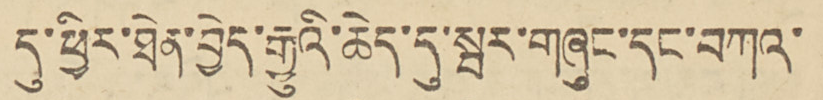དུ་ཕྱིར་ཐེན་བྱེད་རྒྱུའི་ཆེད་དུ་སྦར་གཞུང་དང་བཀའ་
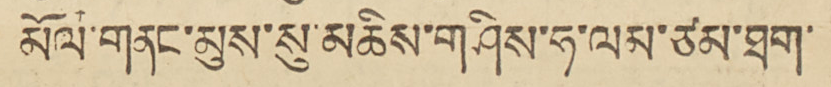མོལ་གནང་མུས་སི་མཆིས་གཤིས་ཧ་ལམ་ཙམ་ཐག་
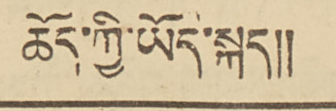ཆོད་ཀྱི་ཡོད་སྐད།།
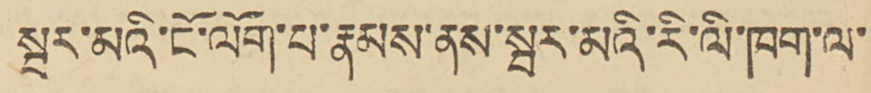སྦར་མའི་ངོ་ལོག་པ་རྣམས་ནས་སྦར་མའི་རི་ལི་ཁག་ལ་
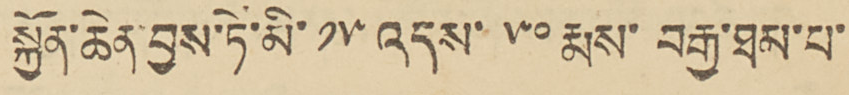སྐྱོན་ཆེན་བྱས་ཏེ་མི་ ༡༥ འདས་ ༥༠ རྨས་བརྒྱ་ཐམ་པ་
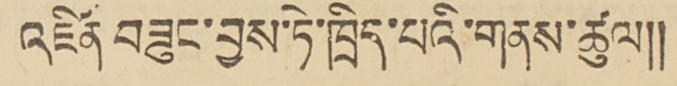འཛིན་བཟུང་བྱས་ཏེ་ཁྲིད་པའི་གནས་ཚུལ།།
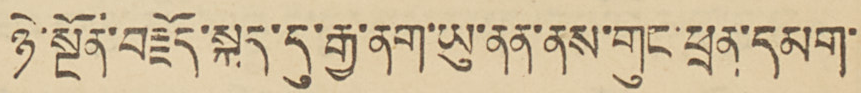ཉེ་སྔོན་བརྗོད་སྐད་དུ་རྒྱ་ནག་ཡུ་ནན་ནས་གུང་ཕྲན་དམག་
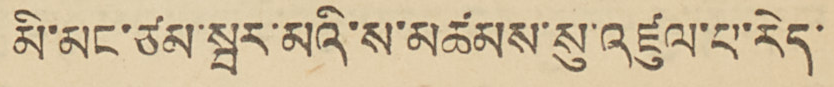མི་མང་ཙམ་སྦར་མའི་ས་མཚམས་སུ་འཛུལ་པ་རེད་
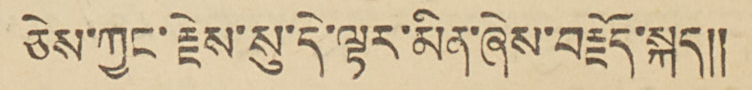ཅེས་ཀྱང་རྗེས་སུ་དེ་ལྟར་མིན་ཞེས་བརྗོད་སྐད།།
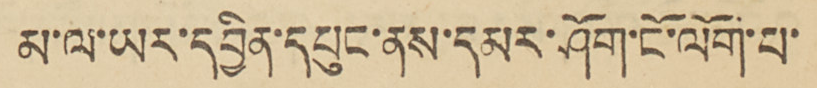མ་ལ་ཡར་དབྱིན་དཔུང་ནས་དམར་ཤོག་ངོ་ལོག་པ་
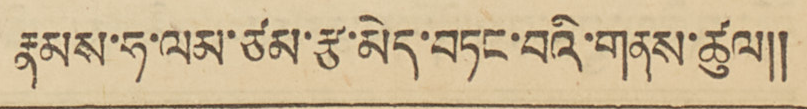རྣམས་ཧ་ལམ་ཙམ་རྩ་མེད་བཏང་བའི་གནས་ཚུལ།།
